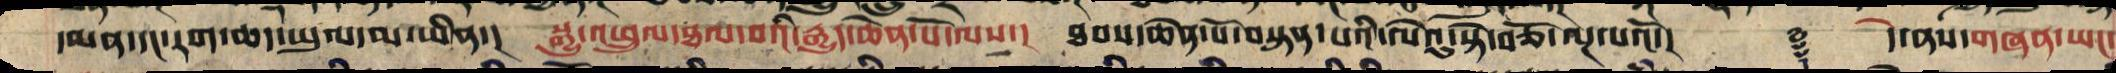དམན་དང་རིགས་ཆད་ཡུལ་མ་ཡིན་། སྒྱུ་འཕྲུལ་དཐལ་བའི་རྒྱུད་ཆེན་པོ་ལས་། ཐབས་ཆེན་པོ་བསྟན་པའི་ལེའུ་སྟེ་བཅོ་ལྔ་པའོ་།། ༈ དེ་ནས་གཞན་ཡང་
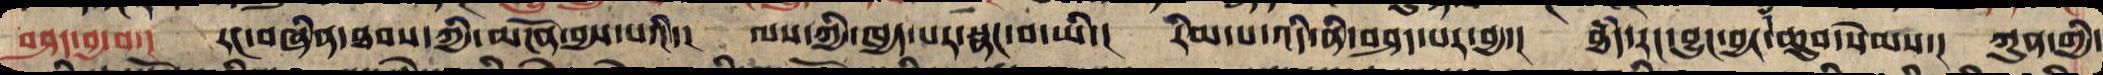བཤད་བྱ་བ་། རང་བཞིན་ཐབས་ཀྱིས་མངོན་བྱས་པའི་། ལས་ཀྱི་ཁྱད་པར་སྣང་བ་ཡི་། རིམ་པ་འདི་ནི་བཤད་པར་བྱ།་ ཐཾད་རང་བྱུང་བྱང་ཆུབ་སེམས་། ཀུན་གྱི་
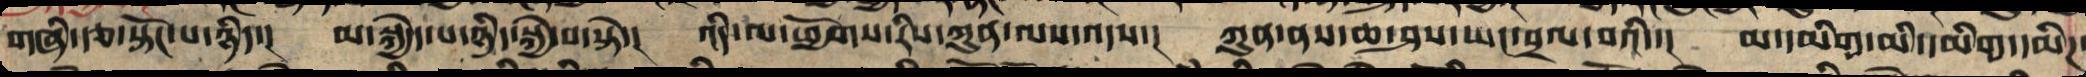གཞི་རྩ་སྟོང་པ་ཉིད་། མ་སྐྱེད་པ་ཉིད་སྐྱེ་བ་སྟེ་། འདི་ལ་ཕྱོགས་རིས་ཀུན་ལས་འདས་། ཀུན་ནས་ཆ་ཤས་སྤང་བྲལ་བའི་། མ་དམིག་མི་དམིག་དམིཌ་
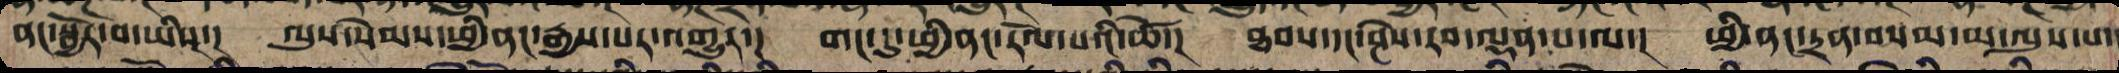ནང་སྦྱོར་བ་ཡིས་། ལུས་སེམས་ཕྱི་ནང་རྒྱས་པར་འགྱུར། །གང་དུ་ཕྱི་ནང་རོལ་པའི་ཚེ་། ཐབས་དང་ཤེས་རབ་ལྡན་པ་ལ་། ཕྱི་ནང་དྲན་བསམ་མ་ལུས་པ་
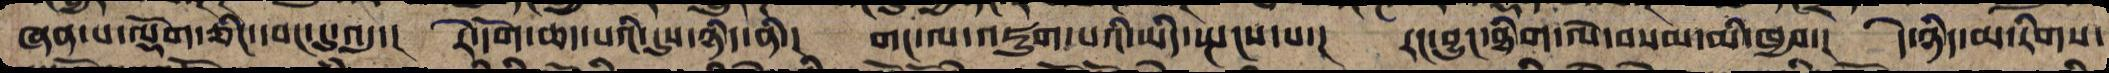ཞེན་པ་ལྡོག་ཅིང་དབང་དུ་འདུ་། རེ་དོགས་ཆད་པའི་དུས་ཉིད་ནི་། གང་ལ་འཇུག་པའི་ཡིད་སྤངས་པས་། རང་བྱུང་ཐིག་ལེ་བསམ་མི་ཁྱབ་། དེ་ཉིད་མ་རིག་
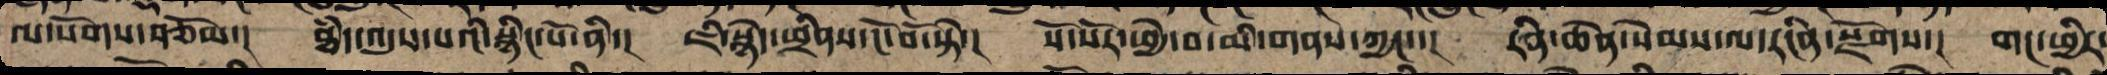ལ་སོགས་བརྩོམ་། ཐཾད་འདུས་པའི་སྙིང་པོ་ནི་། ཇི་སྙེད་ཕྲིནས་ངོ་བོ་སྟེ་། སོ་སོར་ཕྱེ་བ་མི་གནས་ཀྱང་་། རིན་ཆེན་སེམས་ལ་རངིན་སྫོགས་། གང་ཕྱིར་
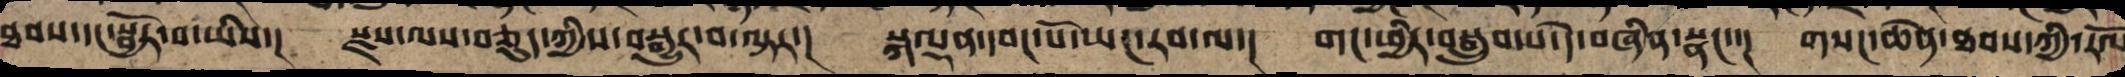ཐབས་དང་སྦྱོར་བ་ཡིས་། སྫས་ལས་བཅུད་ཀྱིས་བསྒྱུར་བ་ལྟར་། སྐལྡན་དབང་པོ་ཡང་རབ་ལ་། གང་ཕྱིར་བསྒྲུབ་པ་དེ་བཞིན་སྣང་་། གསང་ཆེན་ཐབས་ཀྱི་རོལ
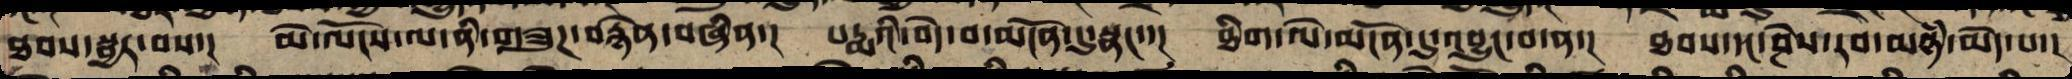ཐབས་སྦྱར་བས་། མེ་ལོང་ལ་ནི་གཟུཌ་བརྙན་བཞིན་། པདྨའི་བདེ་བ་མངོན་དུ་སྣང་་། ཐིག་ལེ་མངོན་དུ་འབྱུང་བ་ན་། ཐབས་དང་ཤེས་རབ་མཉཾ་མེད་པ་།
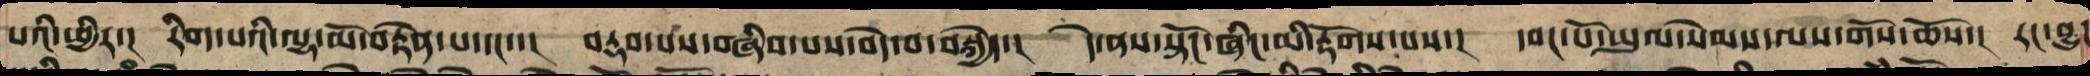པའི་ཕྱིར་། རིག་པའི་ལྷ་མོ་བརྟེན་པ་དང་་། བརྡབ་དང་བཞིབ་པས་བདེ་བ་བསྐྱེད་། དེ་ནས་སྟོང་ཞིང་མི་རྟོག་པས་། དབང་པོ་ཡུལ་སེམས་ལ་སོགས་ཆོས་། རང་བྱུང་
